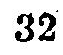32
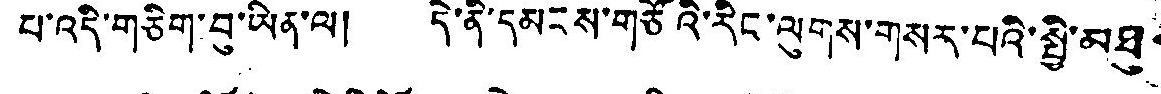པ་འདི་གཅིག་བུ་ཡིན་ལ། དེ་ནི་དམངས་གཙོའི་རིང་ལུགས་གསར་པའི་སྤྱི་མཐུན་
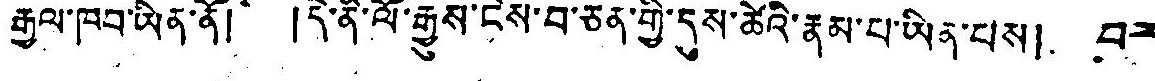རྒྱལ་ཁབ་ཡིན་ནོ། །དེ་ནི་ལོ་རྒྱུས་ངེས་བ་ཅན་གྱི་དུས་ཚེའི་རྣམ་པ་ཡིན་པས། བར་
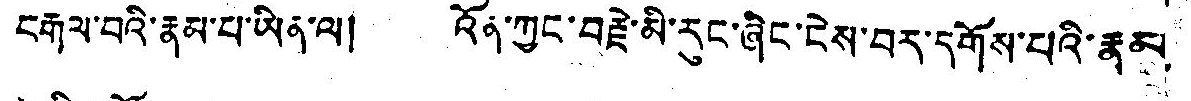བརྒལ་བའི་རྣམ་པ་ཡིན་ལ། འོན་ཀྱང་བརྗེ་མི་རུང་ཞིང་ངེས་བར་དགོས་པའི་རྣམ
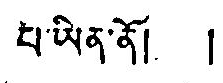པ་ཡིན་ནོ། །
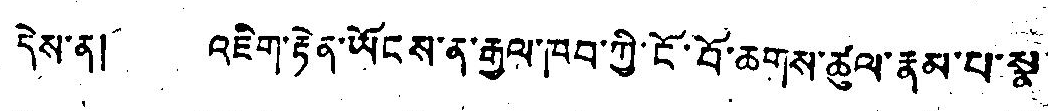དེས་ན། འཇིག་རྟེན་ཡོངས་ན་རྒྱལ་ཁབ་ཀྱི་ངོ་བོ་ཆགས་ཚུལ་རྣམ་པ་སྣ་
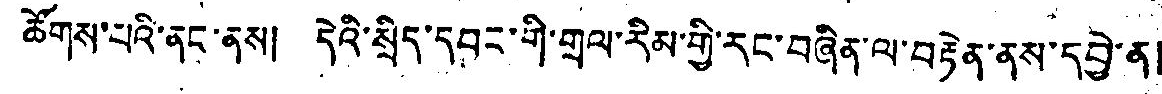ཚོགས་པའི་ནང་ནས། དེའི་སྲིད་དབང་གི་གྲལ་རིམ་གྱི་རང་བཞིན་ལ་བརྟེན་ནས་དབྱེ་ན།
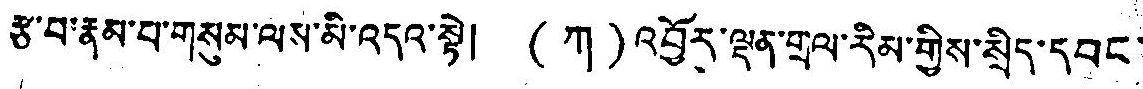རྩ་བ་རྣམ་པ་གསུམ་ལས་མི་འདའ་སྟེ། (ཀ༡)འབྱོར་ལྡན་གྲལ་རིམ་གྱསི་སྲིད་དབང་
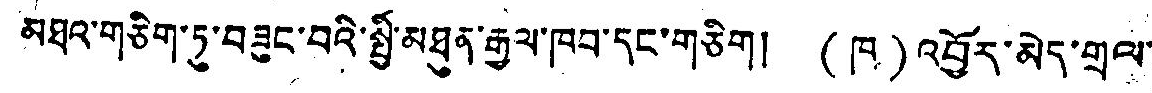མཐའ་གཅིག་ཏུ་བཟུང་བའི་སྤྱི་མཐུན་རྒྱལ་ཁབ་དང་གཅིག། (ཁ)འབྱོར་མེད་གྲལ་
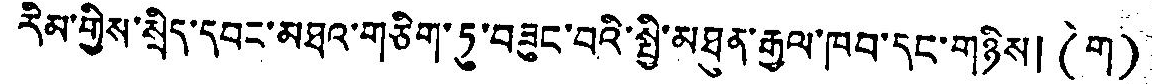རིམ་གྱིས་སྲིད་དབང་མཐའ་གཅིག་ཏུ་བཟུང་བའི་སྤྱི་མཐུན་རྒྱལ་ཁབ་དང་གཉིས། (ག)
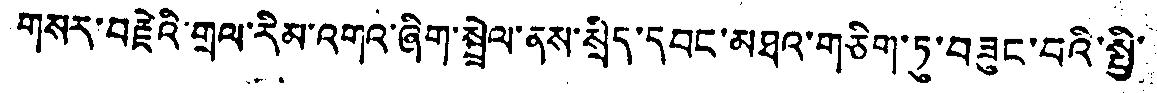གསར་བརྗེའི་གྲལ་རིམ་འགའ་ཞིག་སྦྲེལ་ནས་སྲིད་དབང་མཐའ་གཅིག་ཏུ་བཟུང་བའི་སྤྱི་
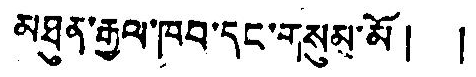མཐུན་རྒྱལ་ཁབ་དང་གསུམ་མོ། །
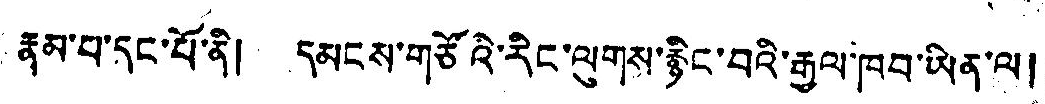རྣམ་པ་དང་པོ་ནི། དམངས་གཙོའི་རིང་ལུགས་རྙིང་བའི་རྒྱལ་ཁབ་ཡིན་ལ།
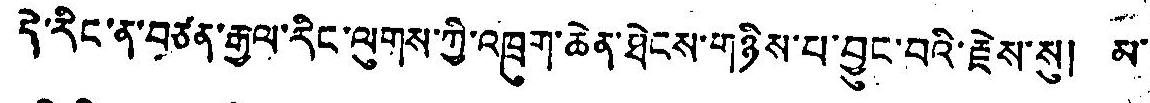དེ་རིང་ན་བཙན་རྒྱལ་རིང་ལུགས་ཀྱི་འཁྲུག་ཆེན་ཐེངས་གཉིས་པ་བྱུང་བའི་རྗེས་སུ། མ་
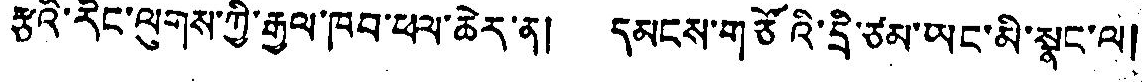རྩའི་རིང་ལུགས་ཀྱི་རྒྱལ་ཁབ་ཕལ་ཆེར་ན། དམངས་གཙོའི་དྲི་ཙམ་ཡང་མི་སྣང་ལ།
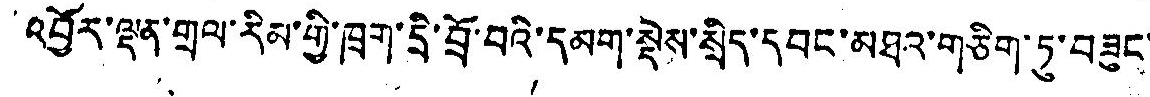འབྱོར་ལྡན་གྲལ་རིམ་གྱི་ཁག་དྲི་བྲོ་བའི་དམག་སྡེས་སྲིད་དབང་མཐའ་གཅིག་ཏུ་བཟུང་
